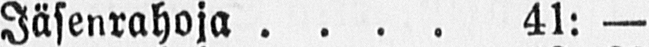Jäsenrahoja 41: —
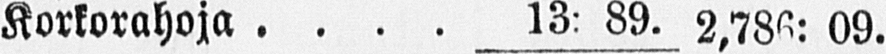Korkorahoja 13: 89. 2,786: 09.
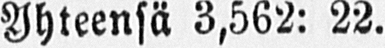Yhteensä 3,562: 22.
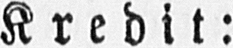Kredit:
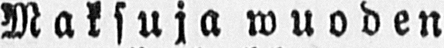Maksuja wuoden
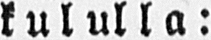kululla:
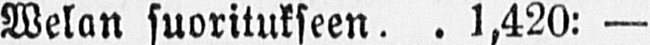Welan suoritukseen 1,420: —
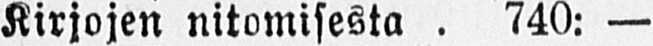Kirjojen nitomisesta 740: —
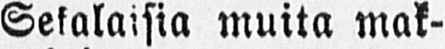Sekalaisia muita mak-
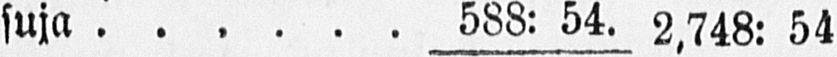suja 588: 54. 2,748: 54
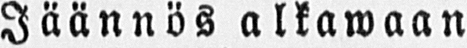Jäännös alkawaan
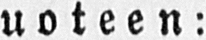wuoteen:
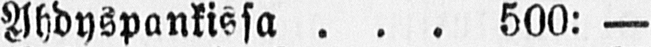Yhdyspankissa 500: —
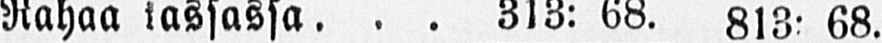Rahaa kassassa 313: 68. 813: 68.
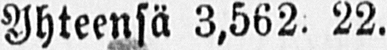Yhteensä 3.562. 22.
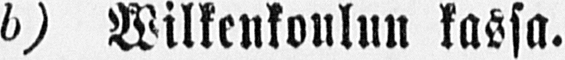b)- Wilkenkoulun kassa.
